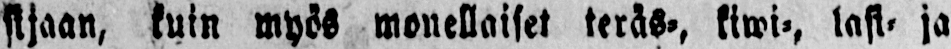sijaan, kuin myös monellaiset teräs-kiwi,- lasi- ja
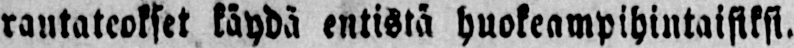rautateokset entistä huokeampihinataisiksi.
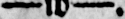— w-.
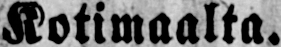Kotimaalta.
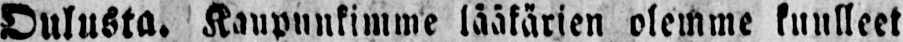Oulusta. Kaupnnkimme lääkärien olemme kuulleet
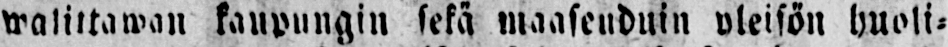walittawan kaupungin sekä maaseuduin yleisön huoli-
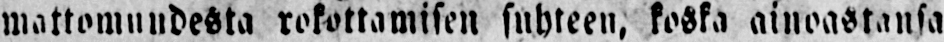mattomuudesta rokottamisen suhteen, koska ainoastansa
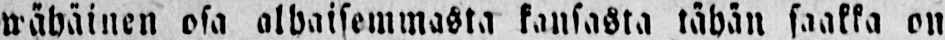wähäinen osa alhaisemmasta kansasta tähän saakka en
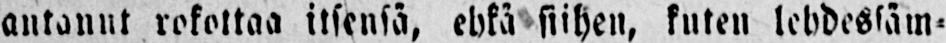antanut rokottaa itsensä, ehkä siihen, kuten lehdestäm-
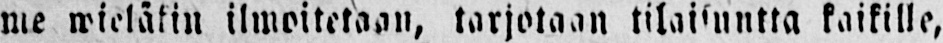me wieläkin ilmoitetaan, tarjotaan tilaisuutta kaikille,
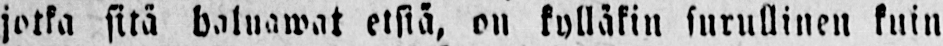jotka sitä haluawat etsiä, on kylläkin surullinen kuin
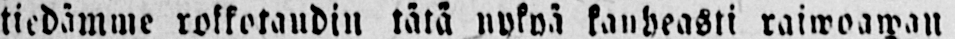tiedämme rokkotaudin tätä nykyä kanheasti raiwoawan
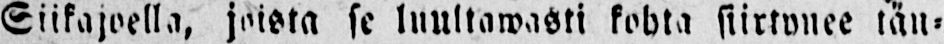Siikajoella, joista se luultawasti kohta siirtynee täu-
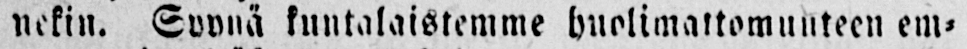nekin. Syynä kuntalaistemme huolimattomuuteen em-
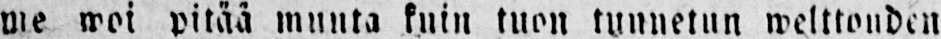me woi pitää muuta kuin tuon tunnetun welttouden
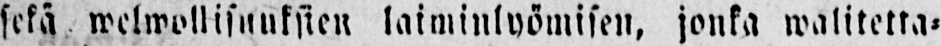sekä welwollisuuksien laiminlyömisen, jonka walitetta-
